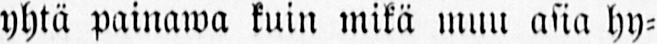yhtä painawa kuin mikä muu alia hy-
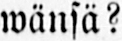wänsä?
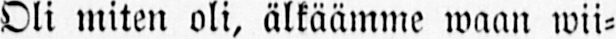Oli miten oli, älkäämme waan wii-
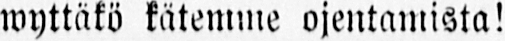qyttäkö kätemme ojentamista!
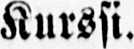Kurssi.
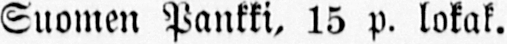Suomen Pankki, 15 p. lokak.
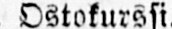Ostokurssi.
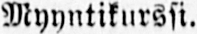Myyntikurssi.
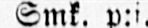Smk. p:i
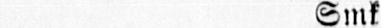Smk. p:i
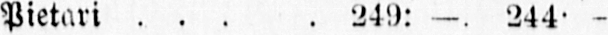Pietari . . . . - 249: —. 244: -
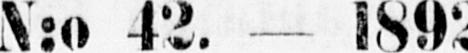N:o 42.— 1892.
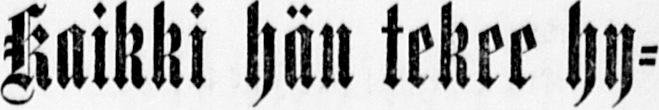Kaikki hän tekee hy-
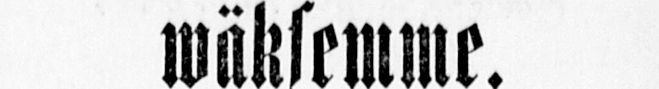wäksemme.
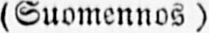(Suomennos )
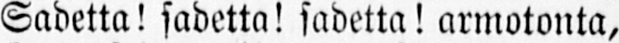Sadetta! sadetta! sadetta! armotonta,
